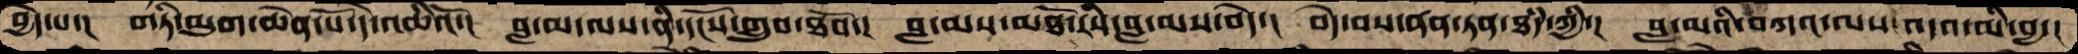བྱེད་པ་།   གཏི་མུག་ཆེན་པོ་དེ་འཆིའོ་།  བླ་མ་ལས་ནི་དངོས་གྲུབ་ཐོབ་།  བླ་མས་མཐོ་རིས་བླ་མས་བདེ་།  བདེ་བས་ནན་ཏན་ཐཾད་ཀྱི་།  བླ་མའི་བཀའ་ལས་འདའ་མི་བྱ་།
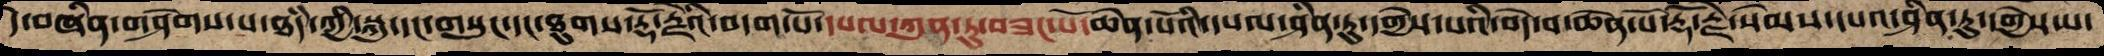དེ་བཞིན་གཤེགས་པ་ཐཾད་ཀྱི་སྐུ་དང་གསུང་དང་ཐུགས་རྡོ་རྗེའི་བདག་པོ་དཔལ་ཀུན་ཏུ་བཟང་པོ་ཆེན་པོའི་དཔལ་ཤིན་ཏུ་དགྱེས་པའི་བདེ་བ་ཆེན་པོ་རྡོ་རྗེ་སེམས་དཔའ་ཤིན་ཏུ་དགྱེས་པ་
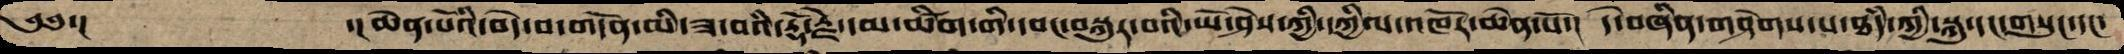༄༅་།         ་།ཆེན་པོའི་བདེ་བ་གདོན་མི་ཟ་བའི་རྡོ་རྗེ་དམ་ཚིག་གི་དབང་བསྐུར་བའི་ཡེ་ཤེས་ཀྱི་དཀྱིལ་འཁོར་ཆེན་པོ་།  དེ་བཞིན་གཤེགས་པ་ཐཾད་ཀྱིསྐུ་དང་གསུང་དང་
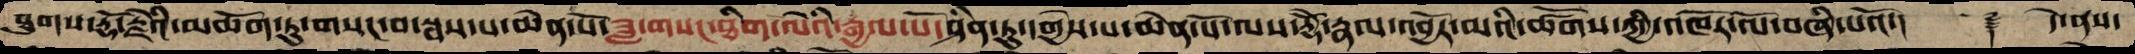ཐུགས་རྡོ་རྗེའི་མཆོག་ཏུ་གསང་བ་སྦས་པ་ཆེན་པོ་ཟླ་གསང་ཐིག་ལེའི་རྒྱལ་པོ་ཤིན་ཏུ་དགྱེས་པ་ཆེན་པོ་ལས་རྡོེ་རྣལ་འབྱོར་མའི་ཚོགས་ཀྱི་འཁོར་ལོ་བཞི་པའོ་།  ༈  དེ་ནས་
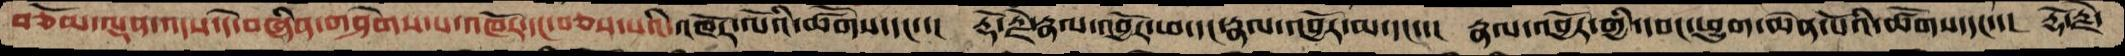བཅོམ་ལྡན་འདས་དེ་བཞིན་གཤེགས་པ་འཁོར་དང་བཅས་པའི་འཁོར་ལོའི་ཚོགས་དང་་།  རྡོ་རྗེ་རྣལ་འབྱོར་ཕ་དང་་རྣལ་འབྱོར་མ་དང་་།  རྣལ་འབྱོར་གྱི་དབང་ཕྱུག་ཆེན་པོའི་ཚོགས་དང་་།  རྡོ་རྗེ་
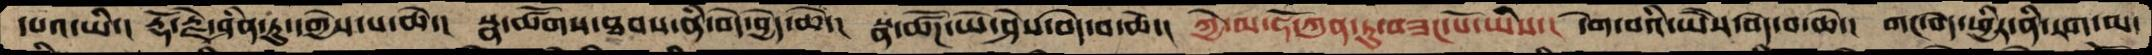དཔའ་ཡི་།  རྡོ་རྗེ་ཤིན་ཏུ་དགྱེས་པ་ཆེ་།  སྣ་ཚོགས་ཐབས་ནི་བདེ་བྱེད་ཆེ་། སྣ་ཚོཌ་ཡེ་ཤེས་བདེ་བ་ཆེ་།  ཀྱེ་མ་ཧོ་ཀུན་ཏུ་བཟང་པོ་ཡིས་།  དགེ་བའི་ཡཻས་བདེ་བ་ཆེ་།  གང་བདེ་ཕྱིར་ནི་རག་མ་
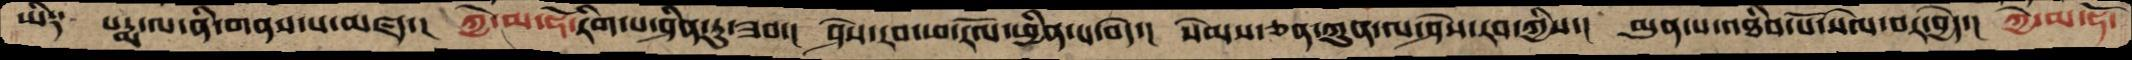ཡི༑   པདྨ་ལ་ནི་གནས་པ་མཛད་།  ཀྱེ་མ་ཧོ་རིག་པ་ཤིན་ཏུ་ཟབ་།  ཤེས་རབ་ཕ་རོལ་ཕྱིན་པ་བདེ་།  སེམས་ཅན་ཀུན་ལ་ཤེས་རབ་ཀྱིས་།  མུན་པ་འཐིབ་པོ་སེལ་བར་བྱེད་།  ཀྱེ་མ་ཧོ་
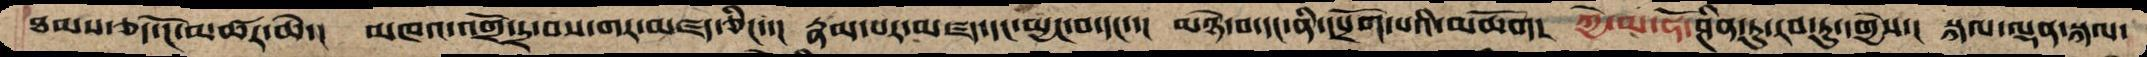ཐམས་ཅད་ངོ་མཚར་ཆེ་།  མཁའ་འགྲོ་དྲ་བས་གར་མཛད་ཅིང་།  རྣམ་པར་མཛད་དང་མྱང་བ་དང་་།  མཉེ་བ་དང་ནི་དཔྲོག་པའི་མཆོག།  ཀྱེ་མ་ཧོ་ཤིན་ཏུ་རབ་ཏུ་དགྱེས་།  སྐལ་ལྡན་སྐལ་
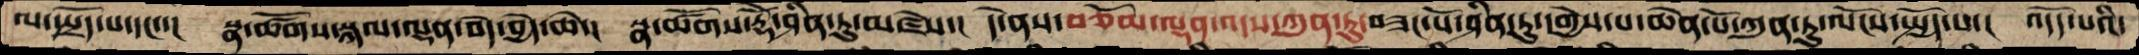ལ་སྤྲོད་པ་དང་་།  སྣ་ཚོགས་སྐལ་ལྡན་བདེ་བྱེད་ཆེ་།  སྣ་ཚོགས་རྡོེ་ཤིན་ཏུ་མཛེས་།  དེ་ནས་བཅོམ་ལྡན་འདས་ཀུན་ཏུ་བཟང་པོ་ཤིན་ཏུ་དགྱེས་པ་ཆེན་པོ་ཀུན་ཏུ་ལོངས་སྤྱོད་པ་།  འདོད་པའི་
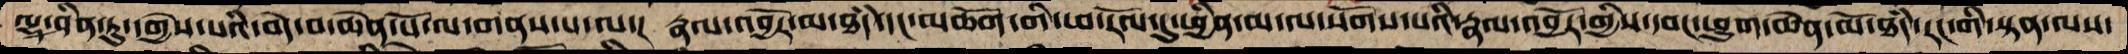ལྷ་ཤིན་ཏུ་དགྱེས་པའི་བདེ་བ་ཆེན་པོ་ལ་གནས་པ་ལ་།  རྣལ་འབྱོར་མ་ཐཾད་དང་མཆོག་གི་ཕ་རོལ་དུ་ཕྱིན་མ་ལ་སོགས་པའི་རྣལ་འབྱོར་གྱིས་དབང་ཕྱུག་ཆེན་མོ་ཐཾད་རང་གི་སྟན་ལས་
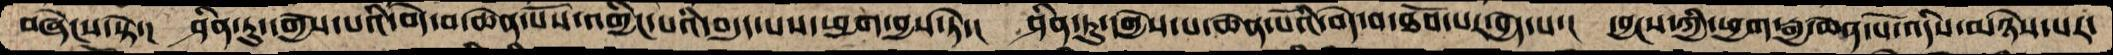བཞེངས་སྟེ་།   ཤིན་ཏུ་དགྱེས་པའི་བདེ་བ་ཆེན་པོས་འགྱིང་པའི་བདུད་པས་ཕྱག་བྱས་ཏེ་།   ཤིན་ཏུ་དགྱེས་པ་ཆེན་པོའི་བདེ་བ་ཐོབ་པར་བྱེད་པ་།   དབྱངས་ཀྱི་ཕྱག་རྒྱ་ཆེན་པོ་འདིས་མཉེས་པར་
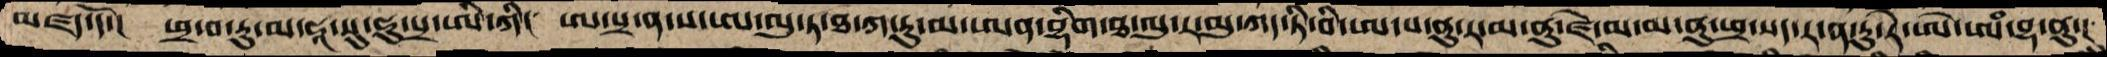མཛད་དོ་།  ཕྲ་བ་ཏུ་མ་ཧཱ་སུ་ཧུ་སྲ་ཨི་ཀི་།  ཨ་སྲ་ན་ས་ཨ་ལུ་ཏ་ཐ་ཀ་ཏུ་མ་ཨན་བྷིག་ཐ་ལུ་ར་མུ་ཀད་ཏི་བི་ཨ་པ་ནུ་ར་མ་ནུ་ཛེ་མ་མ་ནུ་ཕྲ་སད་ར་ན་ཏུ་རེ་ཨེ་ཨཾ་བྷ་ནུ་།
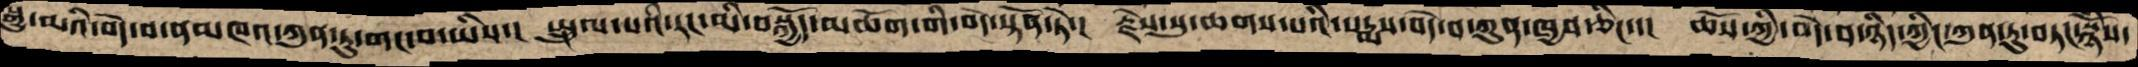སྒྱུ་མའི་བདེ་བ་ནམཁའ་ཀུན་ཏུ་གང་བ་ཡིས་།  སྤྲུལ་པའི་རང་མི་བསྐྱོད་མཆོག་གི་བདེ་སྟོན་ཏེ་།  རྗེས་སུ་ཆགས་པའི་པདྨས་བདེ་བ་ཀུན་ཁྱབ་ཅིང་་།  ཆོས་ཀྱི་བདེ་བ་ཉིད་ཀྱིང་ཀུན་ཏུ་བཏང་སྙོཾས་
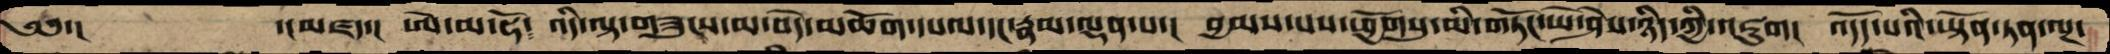༄༅་།        ་།མཛད་།  ཨེ་མ་ཧོ་ འདི་ལྟ་གཟུངས་མ་བདེ་མཆོག་དཔལ་དང་རྣམ་ལྡན་པ་།  བྱམས་པས་ཕྱོགསུ་མི་གཏོང་ཡེ་ཤེས་ཉིད་ཀྱི་འཇུག།  འདོད་པའི་ཡྟོན་ཏན་ལྔ་
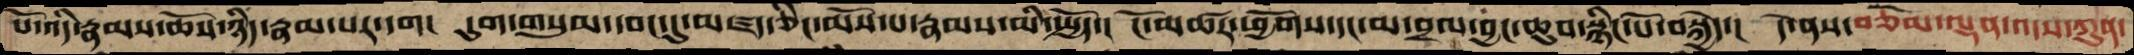པོ་འདི་རྣམས་ཆོས་ཉིད་རྣམ་པར་དག།  དུག་གསུམ་དབང་དུ་མཛད་ཅིང་མོས་པ་རྣམས་མི་སྤྱོད་།  ངོ་མཚར་ཕྱོགས་དང་མ་བྲལ་བྱང་ཆུབ་སྙིང་པོ་བསྐྱེད་།  དེ་ནས་བཅོམ་ལྡན་འདས་ཀུན་
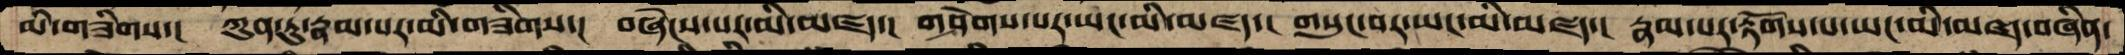མི་གཟིགས་།  ཀུན་ཏུ་རྣམ་པར་མི་གཟིགས་།  བཞེངས་པར་མི་མཛད་།  གཤེགས་པར་ཡང་མི་མཛད་།  གསུང་བར་ཡང་མི་མཛད་།  རྣམ་པར་རྟོགས་པ་ཡང་མི་མཛད་བཞིན་
